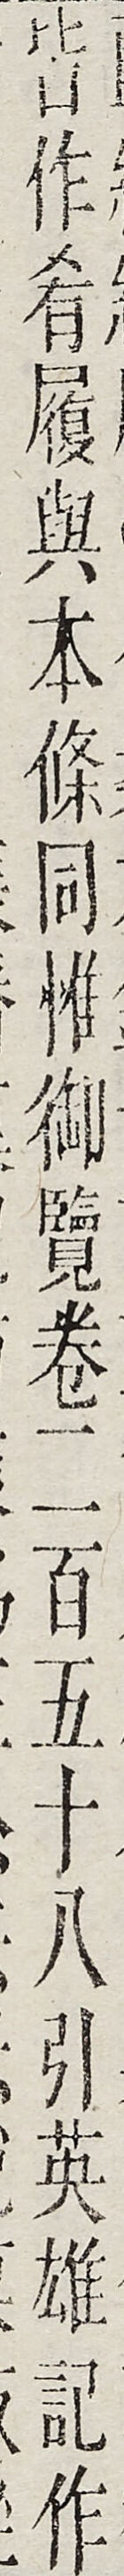皆作肴履與本條同惟御覽卷二百五十八引英雄記作
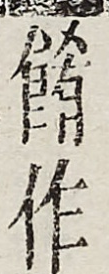肴
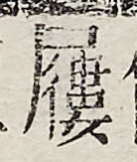作屨
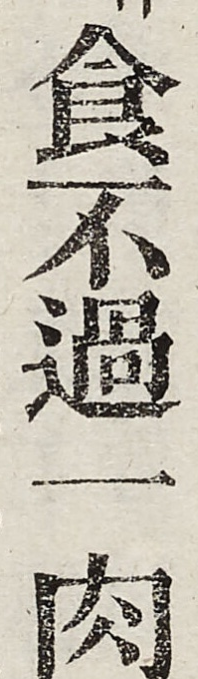食不過一肉
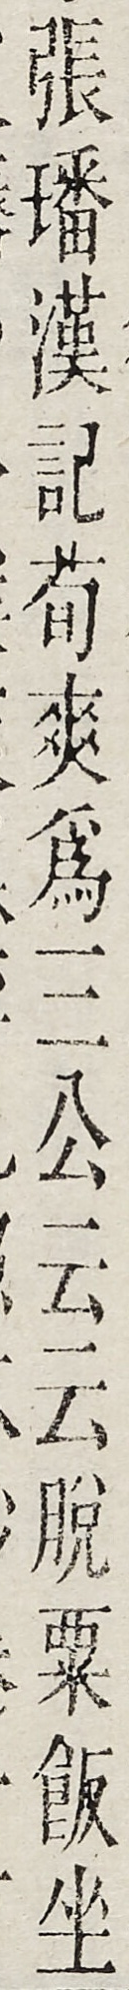張璠漢記荀爽為三公云云脫粟飯坐
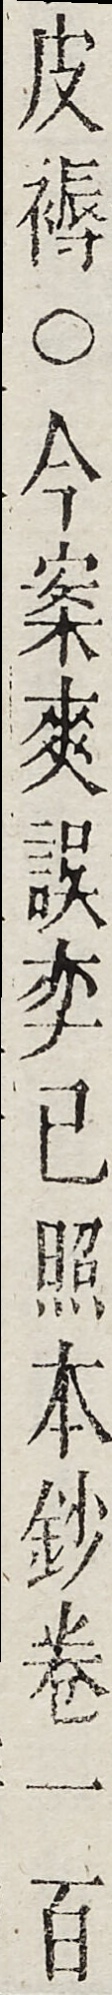皮褥○今案爽誤奕已照本鈔卷一百
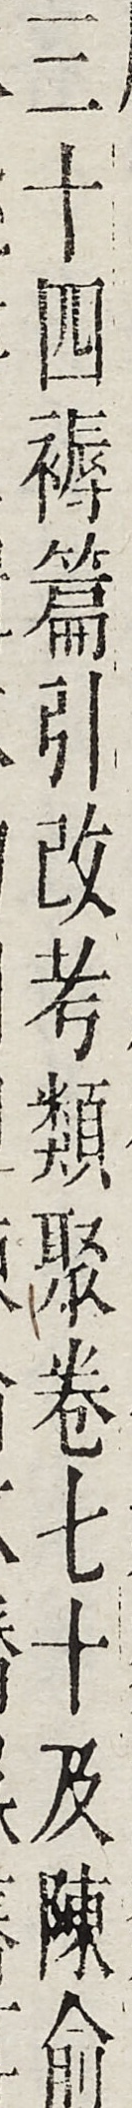三十四褥篇引改考類聚卷七十及陳俞
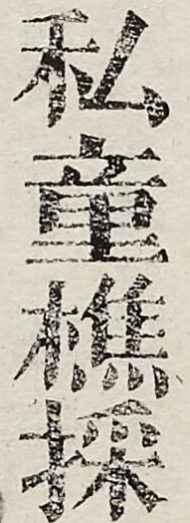私童樵採
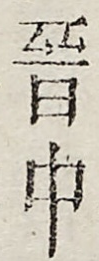晉中
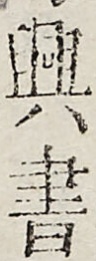興書
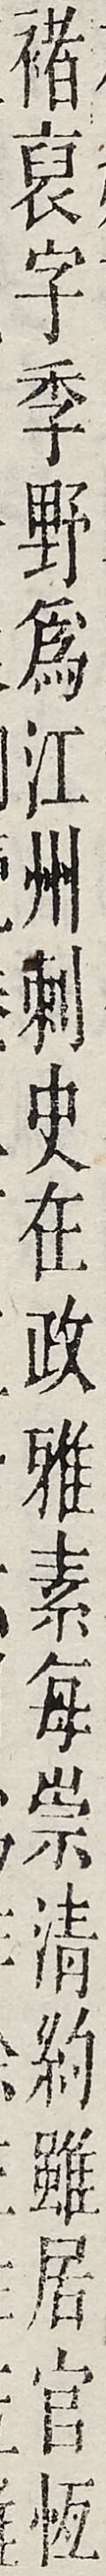褚裒字季野為江州刺史在政雅素每崇清約雖居官恆
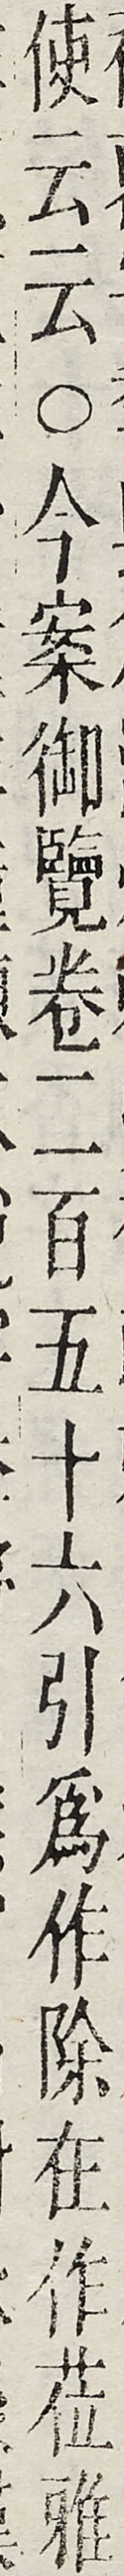使云云○今案御覽卷二百五十六引為作除在作蒞雅
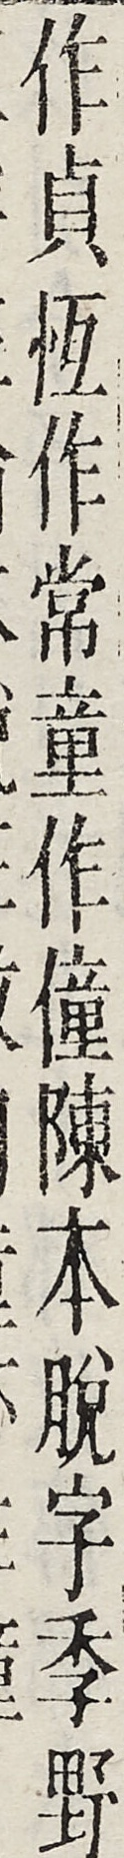作貞冱作常童作僮陳本脫字季野
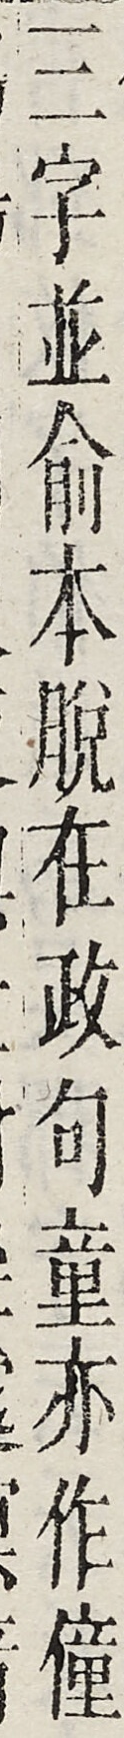三字並俞本脫在政句童亦作僮
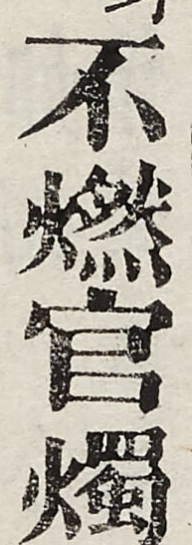不燃官燭
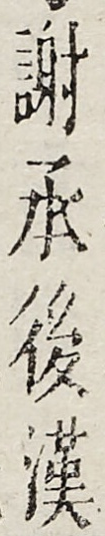謝承後漢
